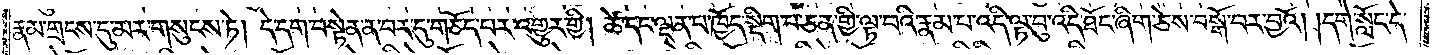རྣམ་གྲངས་དུ་མར་གསུངས་ཏེ། དེ་དག་བསྟེན་ན་བར་དུ་གཅོད་པར་འགྱུར་གྱི། ཚེ་དང་ལྡན་པ་ཁྱོད་སྡིག་པ་ཅན་གྱི་ལྟ་བའི་རྣམ་པ་འདི་ལྟ་བུ་འདི་ཐོང་ཞིག་ཅེས་བསྒོ་བར་བྱའོ། །དགེ་སློང་དེ་
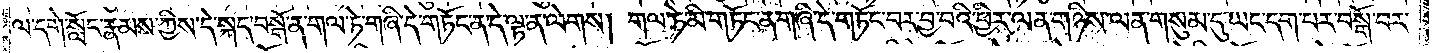ལ་དགེ་སློང་རྣམས་ཀྱིས་དེ་སྐད་བསྒོ་ན་གལ་ཏེ་གཞི་དེ་གཏོང་ན་དེ་ལྟ་ན་ལེགས། གལ་ཏེ་མི་གཏོང་ན་གཞི་དེ་གཏོང་བར་བྱ་བའི་ཕྱིར་ལན་གཉིས་ལན་གསུམ་དུ་ཡང་དག་པར་བསྒོ་བར་
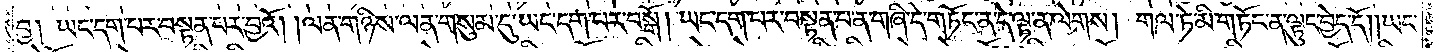བྱ། ཡང་དག་པར་བསྟན་པར་བྱའོ། །ལན་གཉིས་ལན་གསུམ་དུ་ཡང་དག་པར་བསྒོ། ཡང་དག་པར་བསྟན་པ་ན་གཞི་དེ་གཏོང་ན་དེ་ལྟ་ན་ལེགས། གལ་ཏེ་མི་གཏོང་ན་ལྟུང་བྱེད་དོ། །ཡང་
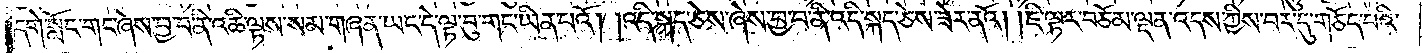དགེ་སློང་གང་ཞེས་བྱ་བ་ནི་འཆི་ལྟས་སམ་གཞན་ཡང་དེ་ལྟ་བུ་གང་ཡིན་པའོ། །འདི་སྐད་ཅེས་ཞེས་བྱ་བ་ནི་འདི་སྐད་ཅེས་ཟེར་ནའོ། །ཇི་ལྟར་བཅོམ་ལྡན་འདས་ཀྱིས་བར་དུ་གཅོད་པའི་
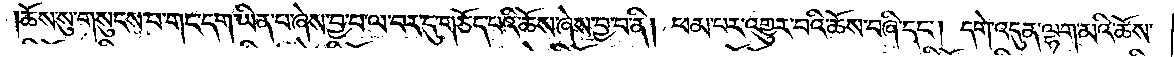ཆོས་སུ་གསུངས་པ་གང་དག་ཡིན་པ་ཞེས་བྱ་བ་ལ་བར་དུ་གཅོད་པའི་ཆོས་ཞེས་བྱ་བ་ནི། ཕམ་པར་འགྱུར་བའི་ཆོས་བཞི་དང༌། དགེ་འདུན་ལྷག་མའི་ཆོས་
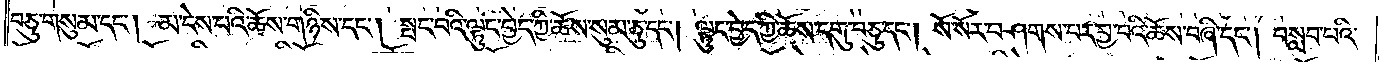བཅུ་གསུམ་དང༌། མ་ངེས་པའི་ཆོས་གཉིས་དང༌། སྤང་བའི་ལྟུང་བྱེད་ཀྱི་ཆོས་སུམ་ཅུ་དང༌། ལྟུང་བྱེད་ཀྱི་ཆོས་དགུ་བཅུ་དང༌། སོ་སོར་བཤགས་པར་བྱ་བའི་ཆོས་བཞི་དང༌། བསླབ་པའི་
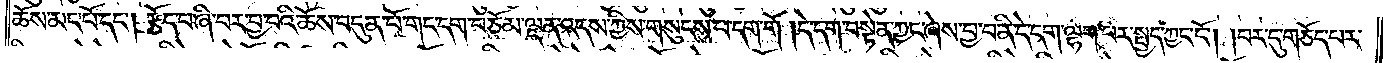ཆོས་མང་པོ་དང༌། རྩོད་པ་ཞི་བར་བྱ་བའི་ཆོས་བདུན་པོ་གང་དག་བཅོམ་ལྡན་འདས་ཀྱིས་གསུངས་པ་དག་གོ །དེ་དག་བསྟེན་ཀྱང་ཞེས་བྱ་བ་ནི་དེ་དག་ལྷག་པར་སྤྱད་ཀྱང་ངོ༌། །བར་དུ་གཅོད་པར་
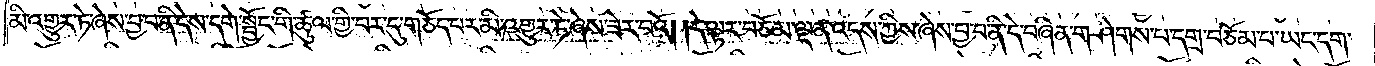མི་འགྱུར་ཏེ་ཞེས་བྱ་བ་ནི་དེས་དགེ་སྦྱོང་གི་ཚུལ་གྱི་བར་དུ་གཅོད་པར་མི་འགྱུར་ཏེ་ཞེས་ཟེར་བའོ། །དེ་ལྟར་བཅོམ་ལྡན་འདས་ཀྱིས་ཞེས་བྱ་བ་ནི་དེ་བཞིན་གཤེགས་པ་དགྲ་བཅོམ་པ་ཡང་དག་
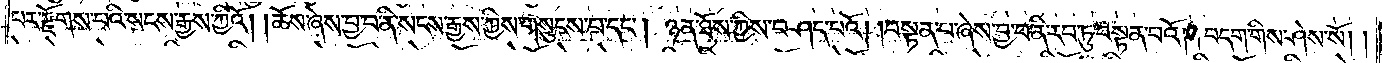པར་རྫོགས་པའི་སངས་རྒྱས་ཀྱིའོ། །ཆོས་ཞེས་བྱ་བ་ནི་སངས་རྒྱས་ཀྱིས་གསུངས་པ་དང༌། ཉན་ཐོས་ཀྱིས་བཤད་པའོ། །བསྟན་པ་ཞེས་བྱ་བ་ནི་རབ་ཏུ་བསྟན་པའོ། །བདག་གིས་ཤེས་སོ། །
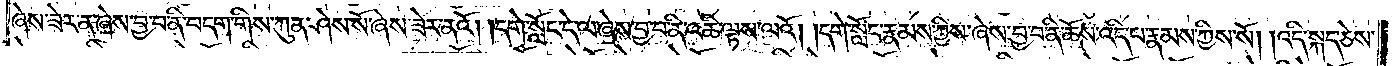ཞེས་ཟེར་ན་ཞེས་བྱ་བ་ནི་བདག་གིས་ཀུན་ཤེས་སོ་ཞེས་ཟེར་ནའོ། །དགེ་སློང་དེ་ལ་ཞེས་བྱ་བ་ནི་འཆི་ལྟས་ལའོ། །དགེ་སློང་རྣམས་ཀྱིས་ཞེས་བྱ་བ་ནི་ཆོས་འདི་པ་རྣམས་ཀྱིས་སོ། །འདི་སྐད་ཅེས་
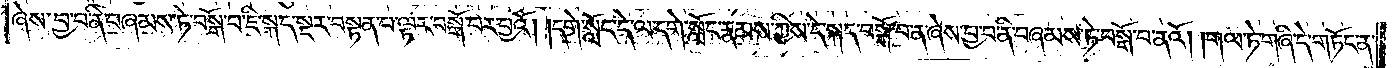ཞེས་བྱ་བ་ནི་བཞམས་ཏེ་བསྒོ་བ་ཇི་སྐད་སྔར་བསྟན་པ་ལྟར་བསྒོ་བར་བྱའོ། །དགེ་སློང་དེ་ལ་དགེ་སློང་རྣམས་ཀྱིས་དེ་སྐད་བསྒོ་བ་ན་ཞེས་བྱ་བ་ནི་བཞམས་ཏེ་བསྒོ་བ་ནའོ། །གལ་ཏེ་གཞི་དེ་གཏོང་ན་
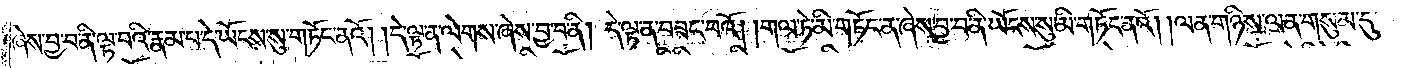ཞེས་བྱ་བ་ནི་ལྟ་བའི་རྣམ་པ་དེ་ཡོངས་སུ་གཏོང་ནའོ། །དེ་ལྟ་ན་ལེགས་ཞེས་བྱ་བ་ནི། དེ་ལྟ་ན་བཟང་བའོ། །གལ་ཏེ་མི་གཏོང་ན་ཞེས་བྱ་བ་ནི་ཡོངས་སུ་མི་གཏོང་ནའོ། །ལན་གཉིས་ལན་གསུམ་དུ་
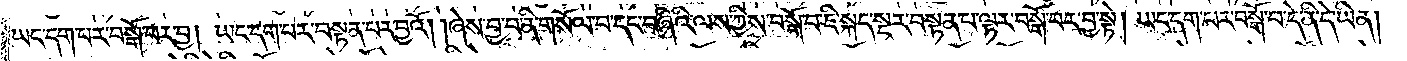ཡང་དག་པར་བསྒོ་བར་བྱའོ། ཡང་དག་པར་བསྟན་པར་བྱའོ། །ཞེས་བྱ་བ་ནི་གསོལ་བ་དང་བཞིའི་ལས་ཀྱིས་བསྒོ་བ་ཇི་སྐད་སྔར་བསྟན་པ་ལྟར་བསྒོ་བར་བྱ་སྟེ། ཡང་དག་པར་བསྒོ་བ་དེ་ནི་དེ་ཡིན།
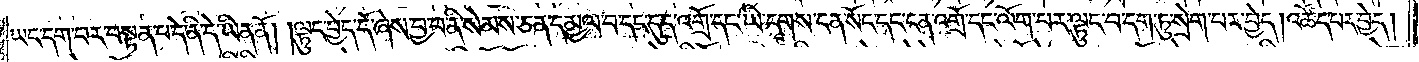ཡང་དག་པར་བསྟན་པ་དེ་ནི་དེ་ཡིན་ནོ། །ལྟུང་བྱེད་དོ་ཞེས་བྱ་བ་ནི་སེམས་ཅན་དམྱལ་བ་དང་དུད་འགྲོ་དང་ཡི་དྭགས་ངན་སོང་དང་ངན་འགྲོ་དང་ལོག་པར་ལྟུང་བ་དག་ཏུ་སྲེག་པར་བྱེད། འཚོད་པར་བྱེད།
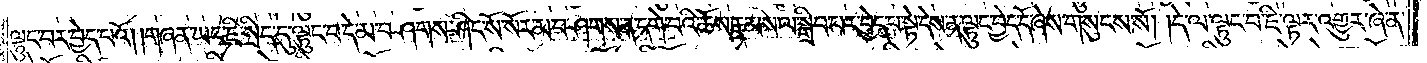ལྟུང་བར་བྱེད་པའོ། །གཞན་ཡང་ཇི་སྲིད་དུ་ལྟུང་བ་དེ་མ་བཤགས་ཤིང་སོ་སོར་མ་བཤགས་ན་དགེ་བའི་ཆོས་རྣམས་ལ་སྒྲིབ་པར་བྱེད་པ་སྟེ་དེས་ན་ལྟུང་བྱེད་དོ་ཞེས་གསུངས་སོ། །དེ་ལ་ལྟུང་བ་ཇི་ལྟར་འགྱུར་ཞེ་ན་
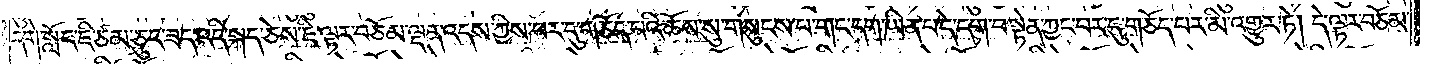དགེ་སློང་ཇི་ཙམ་ཅུང་ཟད་འདི་སྐད་ཅེས་ཇི་ལྟར་བཅོམ་ལྡན་འདས་ཀྱིས་བར་དུ་གཅོད་པའི་ཆོས་སུ་གསུངས་པ་གང་དག་ཡིན་པ་དེ་དག་བསྟེན་ཀྱང་བར་དུ་གཅོད་པར་མི་འགྱུར་ཏེ། དེ་ལྟར་བཅོམ་
